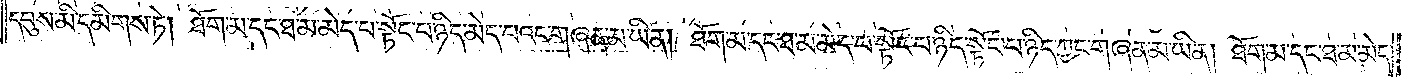དབུས་མི་དམིགས་ཏེ། ཐོག་མ་དང་ཐ་མ་མེད་པ་སྟོང་པ་ཉིད་མེད་པའང་གཞན་མ་ཡིན། ཐོག་མ་དང་ཐ་མ་མེད་པ་སྟོང་པ་ཉིད་སྟོང་པ་ཉིད་ཀྱང་གཞན་མ་ཡིན། ཐོག་མ་དང་ཐ་མ་མེད་
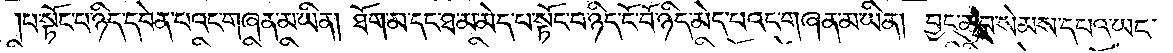པ་སྟོང་པ་ཉིད་དབེན་པའང་གཞན་མ་ཡིན། ཐོག་མ་དང་ཐ་མ་མེད་པ་སྟོང་པ་ཉིད་ངོ་བོ་ཉིད་མེད་པའང་གཞན་མ་ཡིན། བྱང་ཆུབ་སེམས་དཔའ་ཡང་
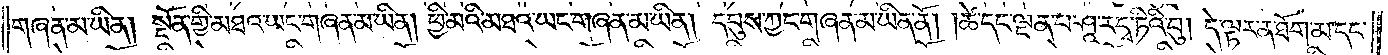གཞན་མ་ཡིན། སྔོན་གྱི་མཐའ་ཡང་གཞན་མ་ཡིན། ཕྱི་མའི་མཐའ་ཡང་གཞན་མ་ཡིན། དབུས་ཀྱང་གཞན་མ་ཡིན་ནོ། །ཚེ་དང་ལྡན་པ་ཤཱ་རདྭ་ཏིའི་བུ། དེ་ལྟར་ན་ཐོག་མ་དང་
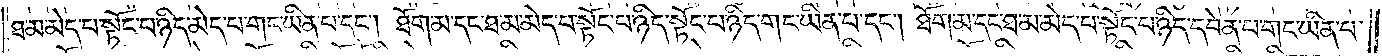ཐ་མ་མེད་པ་སྟོང་པ་ཉིད་མེད་པ་གང་ཡིན་པ་དང༌། ཐོག་མ་དང་ཐ་མ་མེད་པ་སྟོང་པ་ཉིད་སྟོང་པ་ཉིད་གང་ཡིན་པ་དང༌། ཐོག་མ་དང་ཐ་མ་མེད་པ་སྟོང་པ་ཉིད་དབེན་པ་གང་ཡིན་པ་
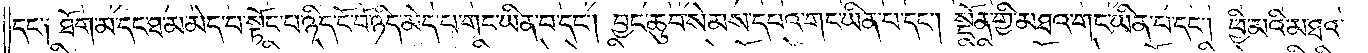དང་༑ ཐོག་མ་དང་ཐ་མ་མེད་པ་སྟོང་པ་ཉིད་ངོ་བོ་ཉིད་མེད་པ་གང་ཡིན་པ་དང༌། བྱང་ཆུབ་སེམས་དཔའ་གང་ཡིན་པ་དང༌། སྔོན་གྱི་མཐའ་གང་ཡིན་པ་དང༌། ཕྱི་མའི་མཐའ་
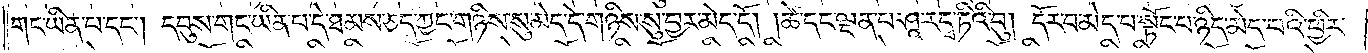གང་ཡིན་པ་དང༌། དབུས་གང་ཡིན་པ་དེ་ཐམས་ཅད་ཀྱང་གཉིས་སུ་མེད་དེ་གཉིས་སུ་བྱར་མེད་དོ། །ཚེ་དང་ལྡན་པ་ཤཱ་རདྭ་ཏིའི་བུ། དོར་བ་མེད་པ་སྟོང་པ་ཉིད་མེད་པའི་ཕྱིར་
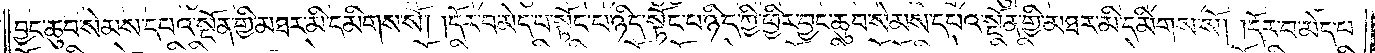བྱང་ཆུབ་སེམས་དཔའ་སྔོན་གྱི་མཐར་མི་དམིགས་སོ། །དོར་བ་མེད་པ་སྟོང་པ་ཉིད་སྟོང་པ་ཉིད་ཀྱི་ཕྱིར་བྱང་ཆུབ་སེམས་དཔའ་སྔོན་གྱི་མཐར་མི་དམིགས་སོ། །དོར་བ་མེད་པ་
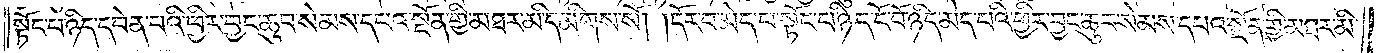སྟོང་པ་ཉིད་དབེན་པའི་ཕྱིར་བྱང་ཆུབ་སེམས་དཔའ་སྔོན་གྱི་མཐར་མི་དམིགས་སོ། །དོར་བ་མེད་པ་སྟོང་པ་ཉིད་ངོ་བོ་ཉིད་མེད་པའི་ཕྱིར་བྱང་ཆུབ་སེམས་དཔའ་སྔོན་གྱི་མཐར་མི་
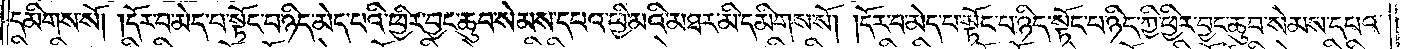དམིགས་སོ། །དོར་བ་མེད་པ་སྟོང་པ་ཉིད་མེད་པའི་ཕྱིར་བྱང་ཆུབ་སེམས་དཔའ་ཕྱི་མའི་མཐར་མི་དམིགས་སོ། །དོར་བ་མེད་པ་སྟོང་པ་ཉིད་སྟོང་པ་ཉིད་ཀྱི་ཕྱིར་བྱང་ཆུབ་སེམས་དཔའ་
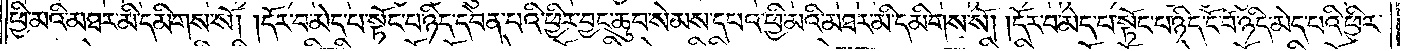ཕྱི་མའི་མཐར་མི་དམིགས་སོ། །དོར་བ་མེད་པ་སྟོང་པ་ཉིད་དབེན་པའི་ཕྱིར་བྱང་ཆུབ་སེམས་དཔའ་ཕྱི་མའི་མཐར་མི་དམིགས་སོ། །དོར་བ་མེད་པ་སྟོང་པ་ཉིད་ངོ་བོ་ཉིད་མེད་པའི་ཕྱིར་
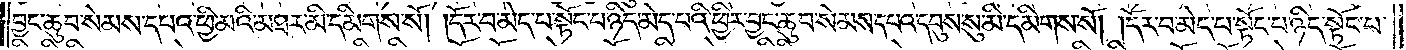བྱང་ཆུབ་སེམས་དཔའ་ཕྱི་མའི་མཐར་མི་དམིགས་སོ། །དོར་བ་མེད་པ་སྟོང་པ་ཉིད་མེད་པའི་ཕྱིར་བྱང་ཆུབ་སེམས་དཔའ་དབུས་སུ་མི་དམིགས་སོ། །དོར་བ་མེད་པ་སྟོང་པ་ཉིད་སྟོང་པ་
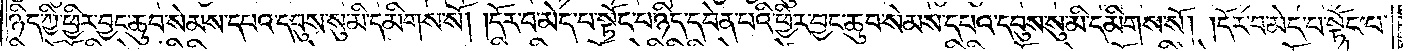ཉིད་ཀྱི་ཕྱིར་བྱང་ཆུབ་སེམས་དཔའ་དབུས་སུ་མི་དམིགས་སོ། །དོར་བ་མེད་པ་སྟོང་པ་ཉིད་དབེན་པའི་ཕྱིར་བྱང་ཆུབ་སེམས་དཔའ་དབུས་སུ་མི་དམིགས་སོ། །དོར་བ་མེད་པ་སྟོང་པ་
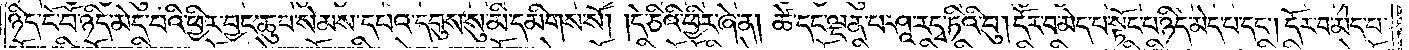ཉིད་ངོ་བོ་ཉིད་མེད་པའི་ཕྱིར་བྱང་ཆུབ་སེམས་དཔའ་དབུས་སུ་མི་དམིགས་སོ། །དེ་ཅིའི་ཕྱིར་ཞེ་ན། ཚེ་དང་ལྡན་པ་ཤཱ་རདྭ་ཏིའི་བུ། དོར་བ་མེད་པ་སྟོང་པ་ཉིད་མེད་པ་དང༌། དོར་བ་མེད་པ་
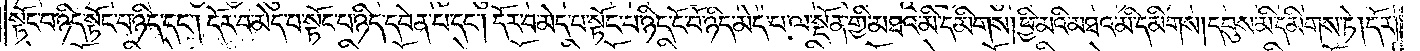སྟོང་པ་ཉིད་སྟོང་པ་ཉིད་དང༌། དོར་བ་མེད་པ་སྟོང་པ་ཉིད་དབེན་པ་དང༌། དོར་བ་མེད་པ་སྟོང་པ་ཉིད་ངོ་བོ་ཉིད་མེད་པ་ལ་སྔོན་གྱི་མཐའ་མི་དམིགས། ཕྱི་མའི་མཐའ་མི་དམིགས། དབུས་མི་དམིགས་ཏེ། དོར་
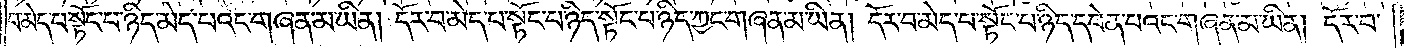བ་མེད་པ་སྟོང་པ་ཉིད་མེད་པའང་གཞན་མ་ཡིན། དོར་བ་མེད་པ་སྟོང་པ་ཉིད་སྟོང་པ་ཉིད་ཀྱང་གཞན་མ་ཡིན། དོར་བ་མེད་པ་སྟོང་པ་ཉིད་དབེན་པའང་གཞན་མ་ཡིན། དོར་བ་
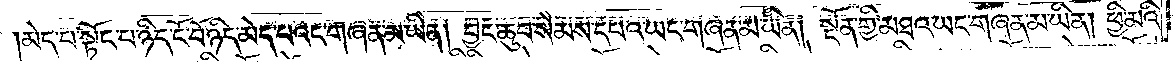མེད་པ་སྟོང་པ་ཉིད་ངོ་བོ་ཉིད་མེད་པའང་གཞན་མ་ཡིན། བྱང་ཆུབ་སེམས་དཔའ་ཡང་གཞན་མ་ཡིན། སྔོན་གྱི་མཐའ་ཡང་གཞན་མ་ཡིན། ཕྱི་མའི་
